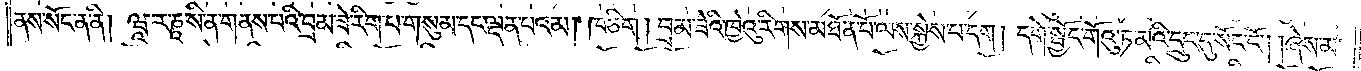ནས་སོང་ན་ནི། ཝཱ་ར་ཎཱ་སི་ན་གནས་པའི་བྲམ་ཟེ་རིག་པ་གསུམ་དང་ལྡན་པའམ། ཁ་ཅིག །བྲམ་ཟེའི་ཁྱེའུ་རིགས་མཐོན་པོ་ལས་སྐྱེས་པ་དག །དགེ་སྦྱོང་གོའུ་ཏ་མའི་དྲུང་དུ་སོང་ངོ༌། །ཞེས་མ་
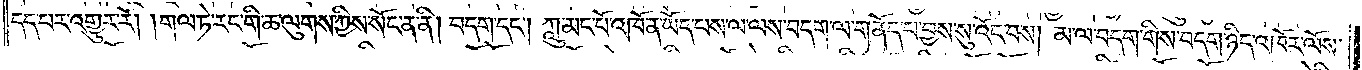དད་པར་འགྱུར་རོ། །གལ་ཏེ་རང་གི་ཆ་ལུགས་ཀྱིས་སོང་ན་ནི། བདག་དང༌། ཀླུ་མང་པོ་འཁོན་ཡོད་པས་ལ་ལས་བདག་ལ་གནོད་པ་བྱས་སུ་འོང་བས། མ་ལ་བདག་གིས་བདག་ཉིད་འཁོར་ལོས་
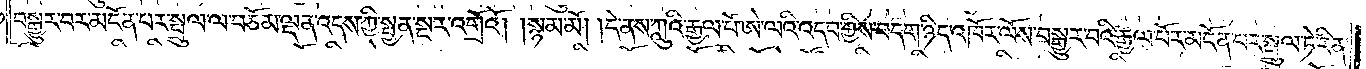བསྒྱུར་བར་མངོན་པར་སྤྲུལ་ལ་བཅོམ་ལྡན་འདས་ཀྱི་སྤྱན་སྔར་འགྲོའོ། །སྙམ་མོ། །དེ་ནས་ཀླུའི་རྒྱལ་པོ་ཨེ་ལའི་འདབ་ཀྱིས་བདག་ཉིད་འཁོར་ལོས་བསྒྱུར་བའི་རྒྱལ་པོར་མངོན་པར་སྤྲུལ་ཏེ་རིན་
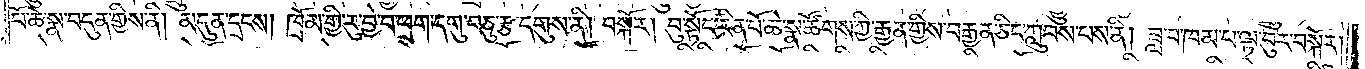པོ་ཆེ་སྣ་བདུན་གྱིས་ནི། མདུན་དྲངས། ཁྲོམ་གྱི་རུ་བྱེ་བ་ཕྲག་དགུ་བཅུ་རྩ་དགུས་ནི། བསྐོར། བུ་སྟོང་རིན་པོ་ཆེ་སྣ་ཚོགས་ཀྱི་རྒྱན་གྱིས་བརྒྱན་ཅིང་ཀླུབས་པས་ནི། ཟླ་བ་ཁམ་པ་ལྟ་བུར་བསྐོར།
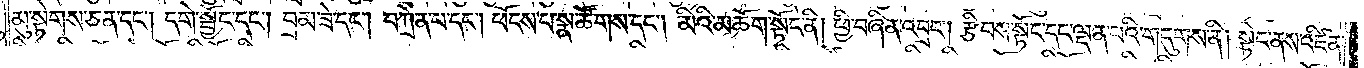མུ་སྟེགས་ཅན་དང༌། དགེ་སྦྱོང་དང༌། བྲམ་ཟེ་དང༌། བཀྲེན་པ་དང༌། ཕོངས་པ་སྣ་ཚོགས་དང༌། མིའི་མཆོག་སྟོང་ནི། ཕྱི་བཞིན་འབྲང༌། རྩིབས་སྟོང་དང་ལྡན་པའི་གདུགས་ནི། སྟེང་ནས་འཛིན་
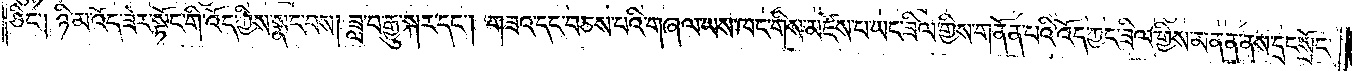ཅིང༌། ཉི་མ་འོད་ཟེར་སྟོང་གི་འོད་ཀྱིས་སྣང་བས། ཟླ་བ་རྒྱུ་སྐར་དང༌། གཟའ་དང་བཅས་པའི་གཞལ་ཡས་ཁང་གིས་མཛེས་པ་ཡང་ཟིལ་གྱིས་གནོན་པའི་འོད་ཀྱང་ཟིལ་གྱིས་མནན་ནས་དྲང་སྲོང་
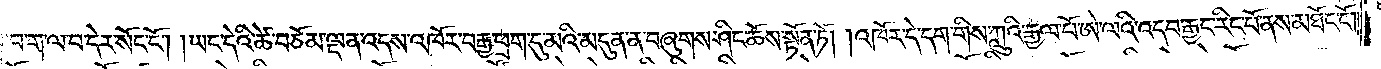སྨྲ་བ་ག་ལ་བ་དེར་སོང་ངོ༌། །ཡང་དེའི་ཚེ་བཅོམ་ལྡན་འདས་འཁོར་བརྒྱ་ཕྲག་དུ་མའི་མདུན་ན་བཞུགས་ཤིང་ཆོས་སྟོན་ཏོ། །འཁོར་དེ་དག་གིས་ཀླུའི་རྒྱལ་པོ་ཨེ་ལའི་འདབ་རྒྱང་རིང་པོ་ནས་མཐོང་ངོ༌༎
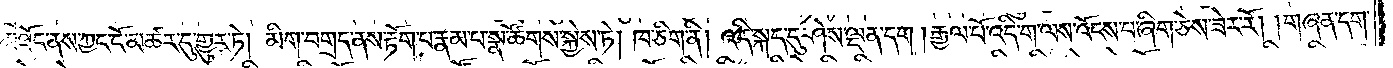མཐོང་ནས་ཀྱང་ངོ་མཚར་དུ་གྱུར་ཏེ། མིག་བགྲད་ནས་རྟོག་པ་རྣམ་པ་སྣ་ཚོགས་སྐྱེས་ཏེ། ཁ་ཅིག་ནི། འདི་སྐད་དུ་ཤེས་ལྡན་དག །རྒྱལ་པོ་འདི་ག་ལས་འོངས་པ་ཞིག་ཅེས་ཟེར་རོ། །གཞན་དག་
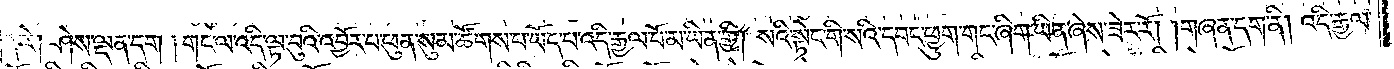ན་རེ། ཤེས་ལྡན་དག །གང་ལ་འདི་ལྟ་བུའི་འབྱོར་པ་ཕུན་སུམ་ཚོགས་པ་ཡོད་པ་འདི་རྒྱལ་པོ་མ་ཡིན་གྱི། སའི་སྟེང་གི་སའི་དབང་ཕྱུག་གང་ཞིག་ཡིན་ཞེས་ཟེར་རོ། །གཞན་དག་ནི། འདི་རྒྱལ་
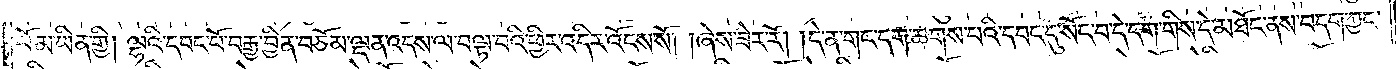པོ་མ་ཡིན་གྱི། ལྷའི་དབང་པོ་བརྒྱ་བྱིན་བཅོམ་ལྡན་འདས་ལ་བལྟ་བའི་ཕྱིར་འདིར་འོངས་སོ། །ཞེས་ཟེར་རོ། དེ་ན་གང་དག་ཆགས་པའི་དབང་དུ་སོང་བ་དེ་དག་གིས་དེ་མཐོང་ནས་བདག་ཀྱང་
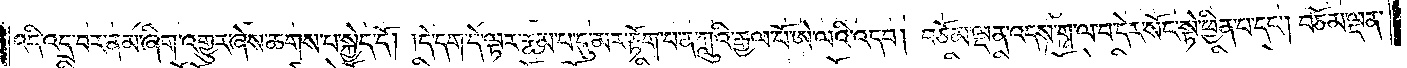འདི་འདྲ་བར་ནམ་ཞིག་འགྱུར་ཞེས་ཆགས་པ་སྐྱེད་དོ། །དེ་དག་དེ་ལྟར་རྣམ་པ་དུ་མར་རྟོག་པ་ན་ཀླུའི་རྒྱལ་པོ་ཨེ་ལའི་འདབ། བཅོམ་ལྡན་འདས་ག་ལ་བ་དེར་སོང་སྟེ་ཕྱིན་པ་དང༌། བཅོམ་ལྡན་
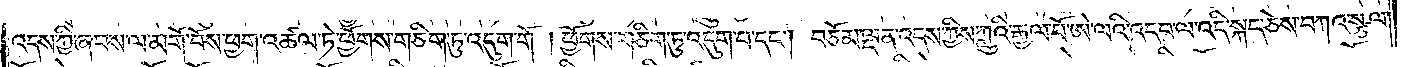འདས་ཀྱི་ཞབས་ལ་མགོ་བོས་ཕྱག་འཚལ་ཏེ་ཕྱོགས་གཅིག་ཏུ་འདུག་གོ །ཕྱོགས་གཅིག་ཏུ་འདུག་པ་དང༌། བཅོམ་ལྡན་འདས་ཀྱིས་ཀླུའི་རྒྱལ་པོ་ཨེ་ལའི་འདབ་ལ་འདི་སྐད་ཅེས་བཀའ་སྩལ་
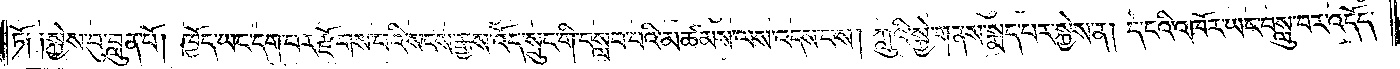ཏོ༑ ༑སྐྱེས་བུ་བླུན་པོ། ཁྱོད་ཡང་དག་པར་རྫོགས་པའི་སངས་རྒྱས་འོད་སྲུང་གི་བསླབ་པའི་མཚམས་ལས་འདས་པས། ཀླུའི་སྐྱེ་གནས་སྨད་པར་སྐྱེས་ན། ད་ངའི་འཁོར་ཡང་བསླུ་བར་འདོད་
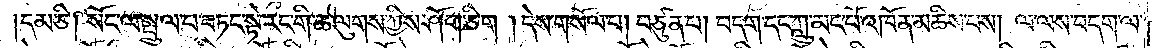དམ་ཅི། སོང་ལ་སྤྲུལ་པ་བཏང་སྟེ་རང་གི་ཆ་ལུགས་ཀྱིས་ཤོག་ཅིག །དེས་གསོལ་པ། བཙུན་པ། བདག་དང་ཀླུ་མང་པོ་འཁོན་མཆིས་པས། ལ་ལས་བདག་ལ་
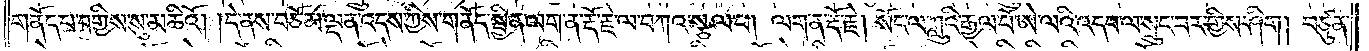གནོད་པ་བགྱིས་སུ་མཆིའོ། །དེ་ནས་བཅོམ་ལྡན་འདས་ཀྱིས་གནོད་སྦྱིན་ལག་ན་རྡོ་རྗེ་ལ་བཀའ་སྩལ་པ། ལག་ན་རྡོ་རྗེ། སོང་ལ་ཀླུའི་རྒྱལ་པོ་ཨེ་ལའི་འདབ་ལ་སྲུང་བར་གྱིས་ཤིག །བཙུན་
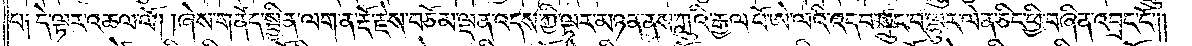པ༑ དེ་ལྟར་འཆལ་ལོ། །ཞེས་གནོད་སྦྱིན་ལག་ན་རྡོ་རྗེས་བཅོམ་ལྡན་འདས་ཀྱི་ལྟར་མཉན་ནས་ཀླུའི་རྒྱལ་པོ་ཨེ་ལའི་འདབ་སྲུང་བ་ལྷུར་ལེན་ཅིང་ཕྱི་བཞིན་འབྲང་ངོ༌༎
